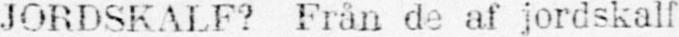JORDSKALF? Från de af jordskalf
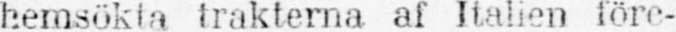hemsökta trakterna af Italien före-
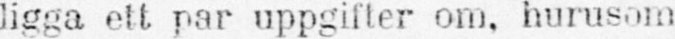ligga ett par uppgifter om. hurusom
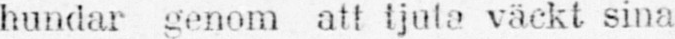hundar genom att tjuta väckt sina
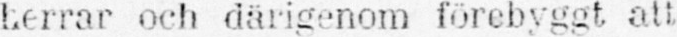herrar och därigenom förebyggt att
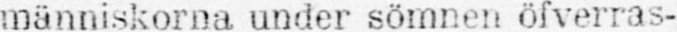människorna under sömnen öfverras-
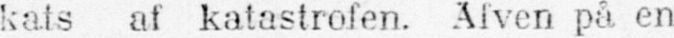kats af katastrofen. Äfven på en
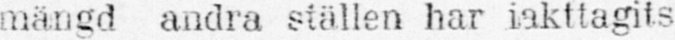mängd andra ställen har iakttagits
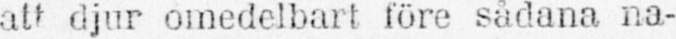att djur omedelbart före sådana na-
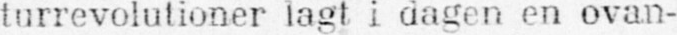turrevolutioner lagt i dagen en ovan-
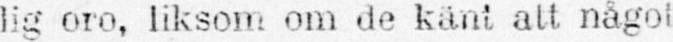lig oro, liksom om de känt att något
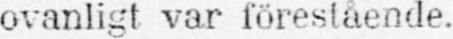ovanligt var förestående.
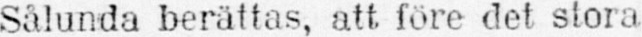Sålunda berättas, att före det stora
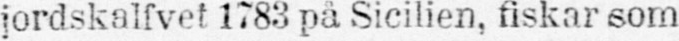jordskalfvet 1783 pä Sicilien, fiskar som
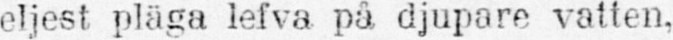eljest, pläga lefva på djupare vatten,
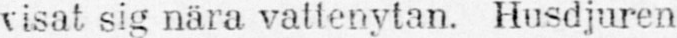visat sig nära vattenytan. Husdjuren
